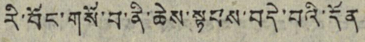རི་བོང་གསོ་བ་ནི་ཆེས་སྟབས་བདེ་བའི་དོན
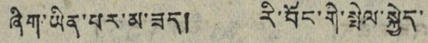ཞིག་ཡིན་པར་མ་ཟད། རི་བོང་གི་སྤེལ་སྐྱེད་
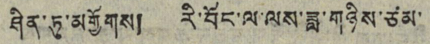ཤིན་ཏུ་མགྱོགས། རི་བོང་ལ་ལས་ཟླ་གཉིས་ཙམ་
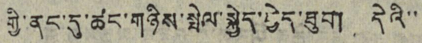གྱི་ནང་དུ་ཚང་གཉིས་སྤེལ་སྐྱེད་བྱེད་ཐུབ། དེའི་་
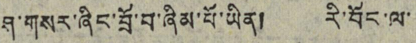ཤ་གསར་ཞིང་བྲོ་བ་ཞིམ་པོ་ཡིན། རི་བོང་ལ་
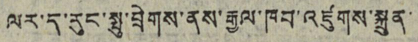ལར་ད་རུང་སྤུ་བྲེགས་ནས་རྒྱལ་ཁབ་འཛུགས་སྐྲུན་
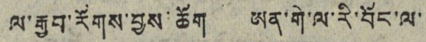ལ་རྒྱབ་རོགས་བྱས་ཆོག ཨན་གེ་ལ་རི་བོང་ལ་
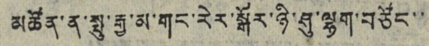མཚོན་ན་སྤྱུ་རྒྱ་མ་གང་རེར་སྒོར་ཉི་ཤུ་ལྷག་བཙོང་་
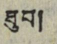ཐུབ།
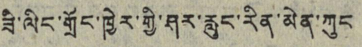ཟི་ལིང་གྲོང་ཁྱེར་གྱི་ཤར་རླུང་རིན་མེན་ཀུང་
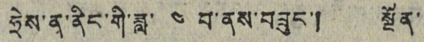ཧྲེས་ན་ནིང་གི་ཟླ་ ༤ པ་ནས་བཟུང་། སྔོན་
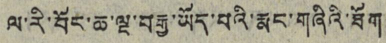ལ་རི་བོར་ཆ་ལྔ་བརྒྱ་ཡོད་པའི་རྨང་གཞིའི་ཐོག
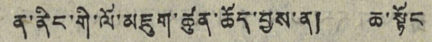ན་ནིང་གི་ལོ་མཇུག་ཚུན་ཆོད་བྱས་ན། ཆ་སྟོང་
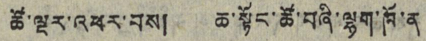ཚོ་ལྔར་འཕར་བས། ཆ་སྟོང་ཚོ་བཞི་ལྷག་ཁོ་ན
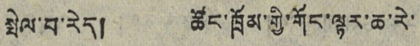སྤེལ་བ་རེད། ཚོང་ཁྲོམ་གྱི་གོང་ལྟར་ཆ་རེ་
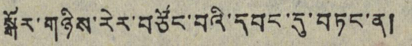སྒོར་གཉིས་རེར་བཙོང་བའི་དབང་དུ་བཏང་ན།
